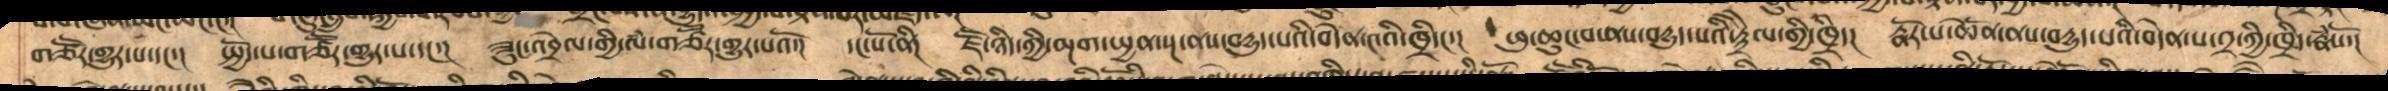གཙཽར་གྱུར་པ་དང་། སྤྱོད་པ་གཙཽར་གྱུར་པ་དང་། ཟུང་འབྲེལ་གྱི་ལྃ་གཙཽར་གྱུར་པའོ་། དང་པོ་ནི། ཇཽ་ཉིད་ཀྱི་མྔག་སྤྱན་སྔ་ནས་བདྱུད་པའི་བདེན་༤འི་ཁྲིདང་། ཕུ་ཆུང་བ་ནས་བདྱུད་པའི་རྟྲཻལ་གྱི་ཁྲིད། རྣོར་པ་ཆེནོ་ནས་བདྱུད་པའི་བདེན་པ་༢་ཀྱི་ཁྲིད་རྣྃསོ་།
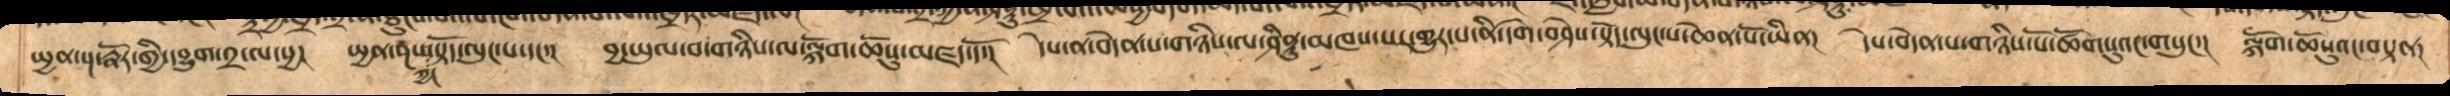སྤྱན་སྔ་རྣོར་གྱི་དབྱུག་༢་ལ་སྱ། སྤྱན་སྔ་ཀྱང་སྟོད་ལུང་པ་དང་།  བྱ་ཡུལ་བ་གཉིས་ལ་ལྐོག་ཆོསུ་མཛད་དོ།  དེས་ན་བདེན་པ་གཉིས་ལ་ཤིནྟུ་མཁས་པར་གྱུར་པ་ནི་དགེ་བཤེས་སྟོད་ལུང་པ་ཆེན་པོ་ཡིན།  དེས་བདེན་པ་གཉིས་པོ་ཚོགསུའང་གསུང་།  ལྐོག་ཆོསུའང་བསྟན། །
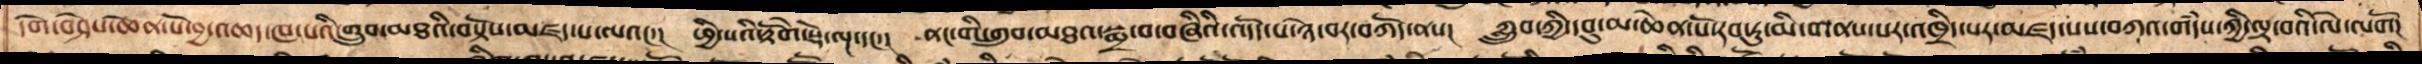དགེ་བཤེས་ཆེན་པོ་བྱ་འཆད་ཁ་པའི་གྲུབ་མཐའིབསྟོས་མཛད་པ་ལའང་། ཕྱི་པའི་རྟོགེ་སྡེ་ལྔ་དང་། ནང་གི་གྲུབ་མཐའ་སྨྲ་བ་བཞིའི་འདོད་པ་ཉེ་བར་བཀོད་ནས། ཀླྲུབ་ཀྱི་དབུ་མ་ཆེན་པོ་རབ་ཏུ་མི་གནས་པར་འཁྲིད་པར་མཛད་པས་བཀའ་གདྃས་ཀྱི་ལྟ་བའི་ལེ་ལགོ།
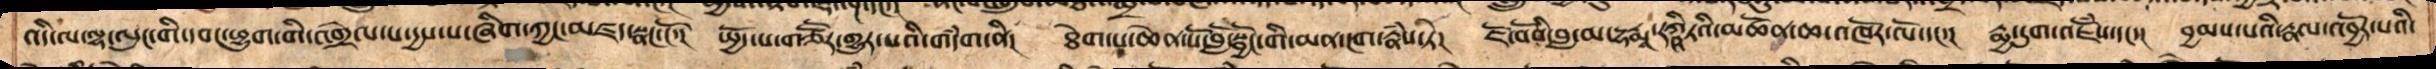འདི་ལ་ལྷ་ལུང་གི་དབང་ཕྱུག་གི་འགྲེལ་པ་དྱས་པ་ཞིག་ཀྱང་མཛད་སྣང་ངོ་། སྤྱོད་པ་གཙཽར་གྱུར་པའི་གདྃག་ནི། ཐེག་པ་ཆེན་པོ་བློ་སྦྱོང་གི་མན་ངག་རྣྃས་ཏེ། ཇོ་བོའི་བླ་མ་དྷརྨཱ་རཀྴི་ཏའི་མཚོན་ཆ་འཁོར་ལོ་དང་། རྨྱ་དུག་འཇོྃས་དང་། བྱམས་པའི་རྣལ་འབྱོར་པའི་
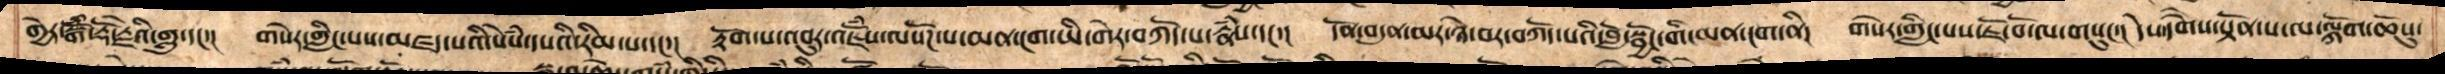གྱེར་སྒོྃ་རྡོ་རྗེའི་གླུ་དང་། གསེར་གླིང་པས་མཛད་པའི་སེྃས་དཔའི་རིམ་པ་དང་། རྟོག་པ་འབུར་འཇོྃས་ལསོཌ་པ་མན་ངག་ཡི་གེར་བཀོད་པ་རྣྃས་དང་། དོན་བདུན་མར་ཉེ་བར་བཀོད་པའི་བློ་སྦྱོང་གི་མན་ངག་ནི། གསེར་གླིང་པས་ཇོ་བོ་ལ་གསུངས། དེས་དགཻས་སྟོན་པ་ལ་ལྐོག་ཆོསུ་
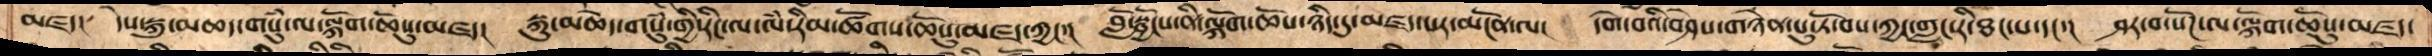མཛད། དེས་སྐུ་མཆད་གསུྃ་ལ་ལྐོག་ཆོསུ་མཛད། སྐུ་མཆེད་གསུྃ་གྱི་རིང་ལ་ལྃ་རིམ་ཚོགས་ཆོསུ་མཛད་ཀྱང་། བློ་སྦྱོངས་ནི་ལྐོག་ཆོས་ཉིད་དུ་མཛད་པར་མངོན་ལ། དགེ་བའི་བཤེས་གཉེན་པུ་ཏོ་བས་ཀྱང་གླང་རི་ཐང་པ་དང་། ཤར་བ་སོཌ་ལ་ལྐོག་ཆོསུ་མཛད་
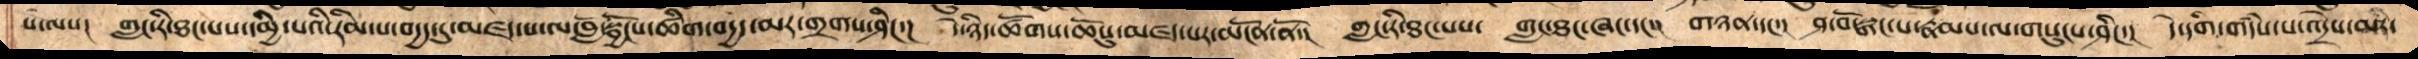ས་ལས།  གླང་རི་ཐང་པས་དམྱི་པའི་རིམ་པ་བདྱད་དུ་མཛད་པ་ལ་བློ་སྦྱོངས་ཚིག་བདྱད་མར་གྲགས་ཤིང་། དེ་ཉིད་ཚོགས་ཆོསུ་མཛད་པར་མངོན་ནོ་།  གླང་རི་ཐང་པས།  གླང་ཐང་ཞང་དང་། གཉན་དང་། ཤ་བོ་སྒང་པ་རྣམས་ལ་གསུངས་ཤིང་། དེ་དགི་གདྃས་པ་འདྲེས་མིར་
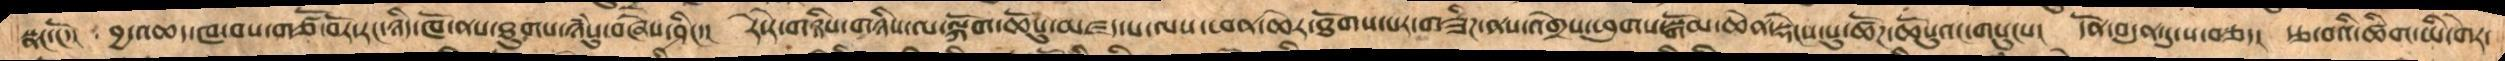སྣང་ངོ་། བྱ་འཆད་ཁ་བས་གཙོ་བོར་རང་ཉིད་ཁོ་ནས་ཐུགས་ཉྃསུ་བཞེས་ཤིང་། རེ་རེ་གཉིས་གཉིས་ལ་ལྐོག་ཆོསུ་མཛད་པ་ལས་ཕན་ཆེར་ཐོགས་པར་གཟིཌ་ནས་འགྲེས་ཕུགས་སྒོམ་ཆེན་སྡེངས་སུ་ཚོཌ་ཆོསུའང་གསུངས། དོན་བདུན་དུ་ས་བཅད། རྩ་བའི་ཚིག་ཡི་གེར་
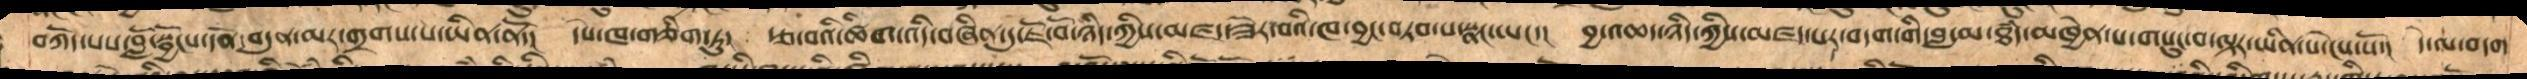བཀོད་པས་བློ་སྦྱོངས་དོན་བདུན་མར་གྲགས་པ་ཡིན་ནོ་། དཔེ་ཁ་ཅིག་ཏུ། རྩ་བའི་ཚིག་འདི་བཞིན་དུ་ཇོ་བོ་ཉིད་ཀྱིས་མཛད་ཟེར་བའི་ཁ་བྱང་བཏབ་པ་སྣང་ཡང་། བྱ་འཆད་ཉིད་ཀྱིས་མཛད་པར་བདག་གི་བླ་མ་ཐྃད་མཁྱེན་པ་གསུང་བ་ལྟར་ཡིན་པ་ངེས་སོ། དེ་ལ་བདག་
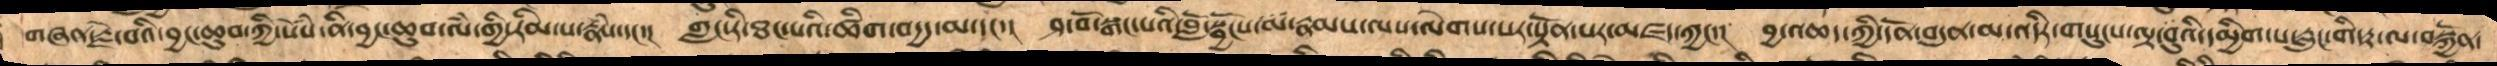གཞན་རྗེ་བའི་བྱང་ཆུབ་ཀྱི་སེྃས་ནི་བྱང་ཆུབ་ལྃ་གྱི་རིམ་པ་རྣྃས་དང་། གླང་རི་ཐང་པའི་ཚིག་བདྱད་མ་དང་། ཤ་བོ་སྒང་པའི་བློ་སྦྱོངས་མ་རྣམས་ལས་ལེགས་པར་སྟོན་པར་མཛད་ཀྱང་། བྱ་འཆད་ཀྱི་དོན་བདུན་མ་འདིར་གསུངས་པ་ལྟ་བུའི་དམྱིག་པ་རླུང་གི་རྟ་ལ་བསྐྱོན་
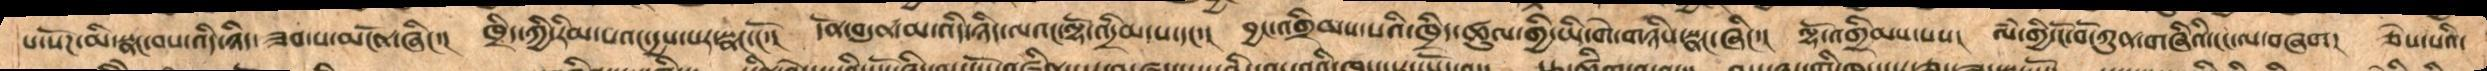པ་སོཌ་མི་སྣང་བས་འདི་ཉིད་ཟབ་པ་མངོན་ཞིང་། ཁྲིད་ཀྱི་རིམ་པའང་དྱས་པར་སྣང་ངོ་། དོན་བདུན་མ་འདི་ཉིད་ལའང་ལྷོ་འདྲིམ་པ་དང་། བྱང་འགྲིམས་པའི་ཁྲིད་ཚུལ་གྱི་ཡི་གེ་གཉིས་སྣང་ཞིང་། ལྷོ་འགྲིམས་པས། ལྃ་གྱི་ངོ་བོ་ཀུན་གཞིའི་ངང་ལ་བཞག། ཅེས་པའི་
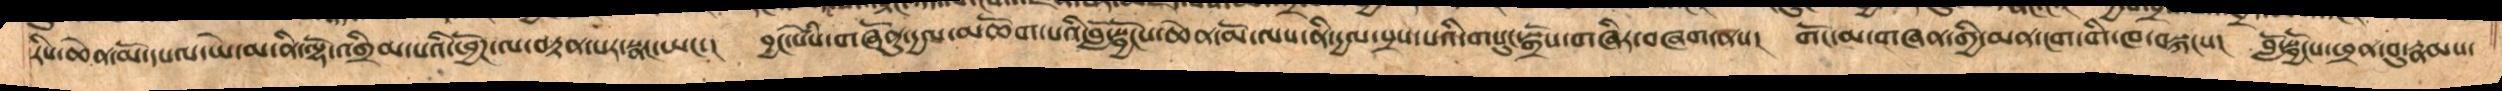རིས་ཆེན་མོ་དཔལ་ཡེ་མ་ནི་ལྷོ་འགྲིམས་པའི་ཕྱོཌ་ལ་བརྟན་པར་སྣང་ཡང་། བྱང་སེྃས་གཞོནུ་དྱལ་མཆོག་པའི་བློ་སྦྱོངས་ཆེན་མོ་ལས་ནི་དྱལ་སྲས་པའི་གསུང་སྒྲོས་གཞིར་བཞག་ནས། གོང་མ་གཞན་གྱི་མན་ངག་གི་ཁ་བསྐངས། བློ་སྦྱོངས་ཕྲན་བུ་རྣམས་
